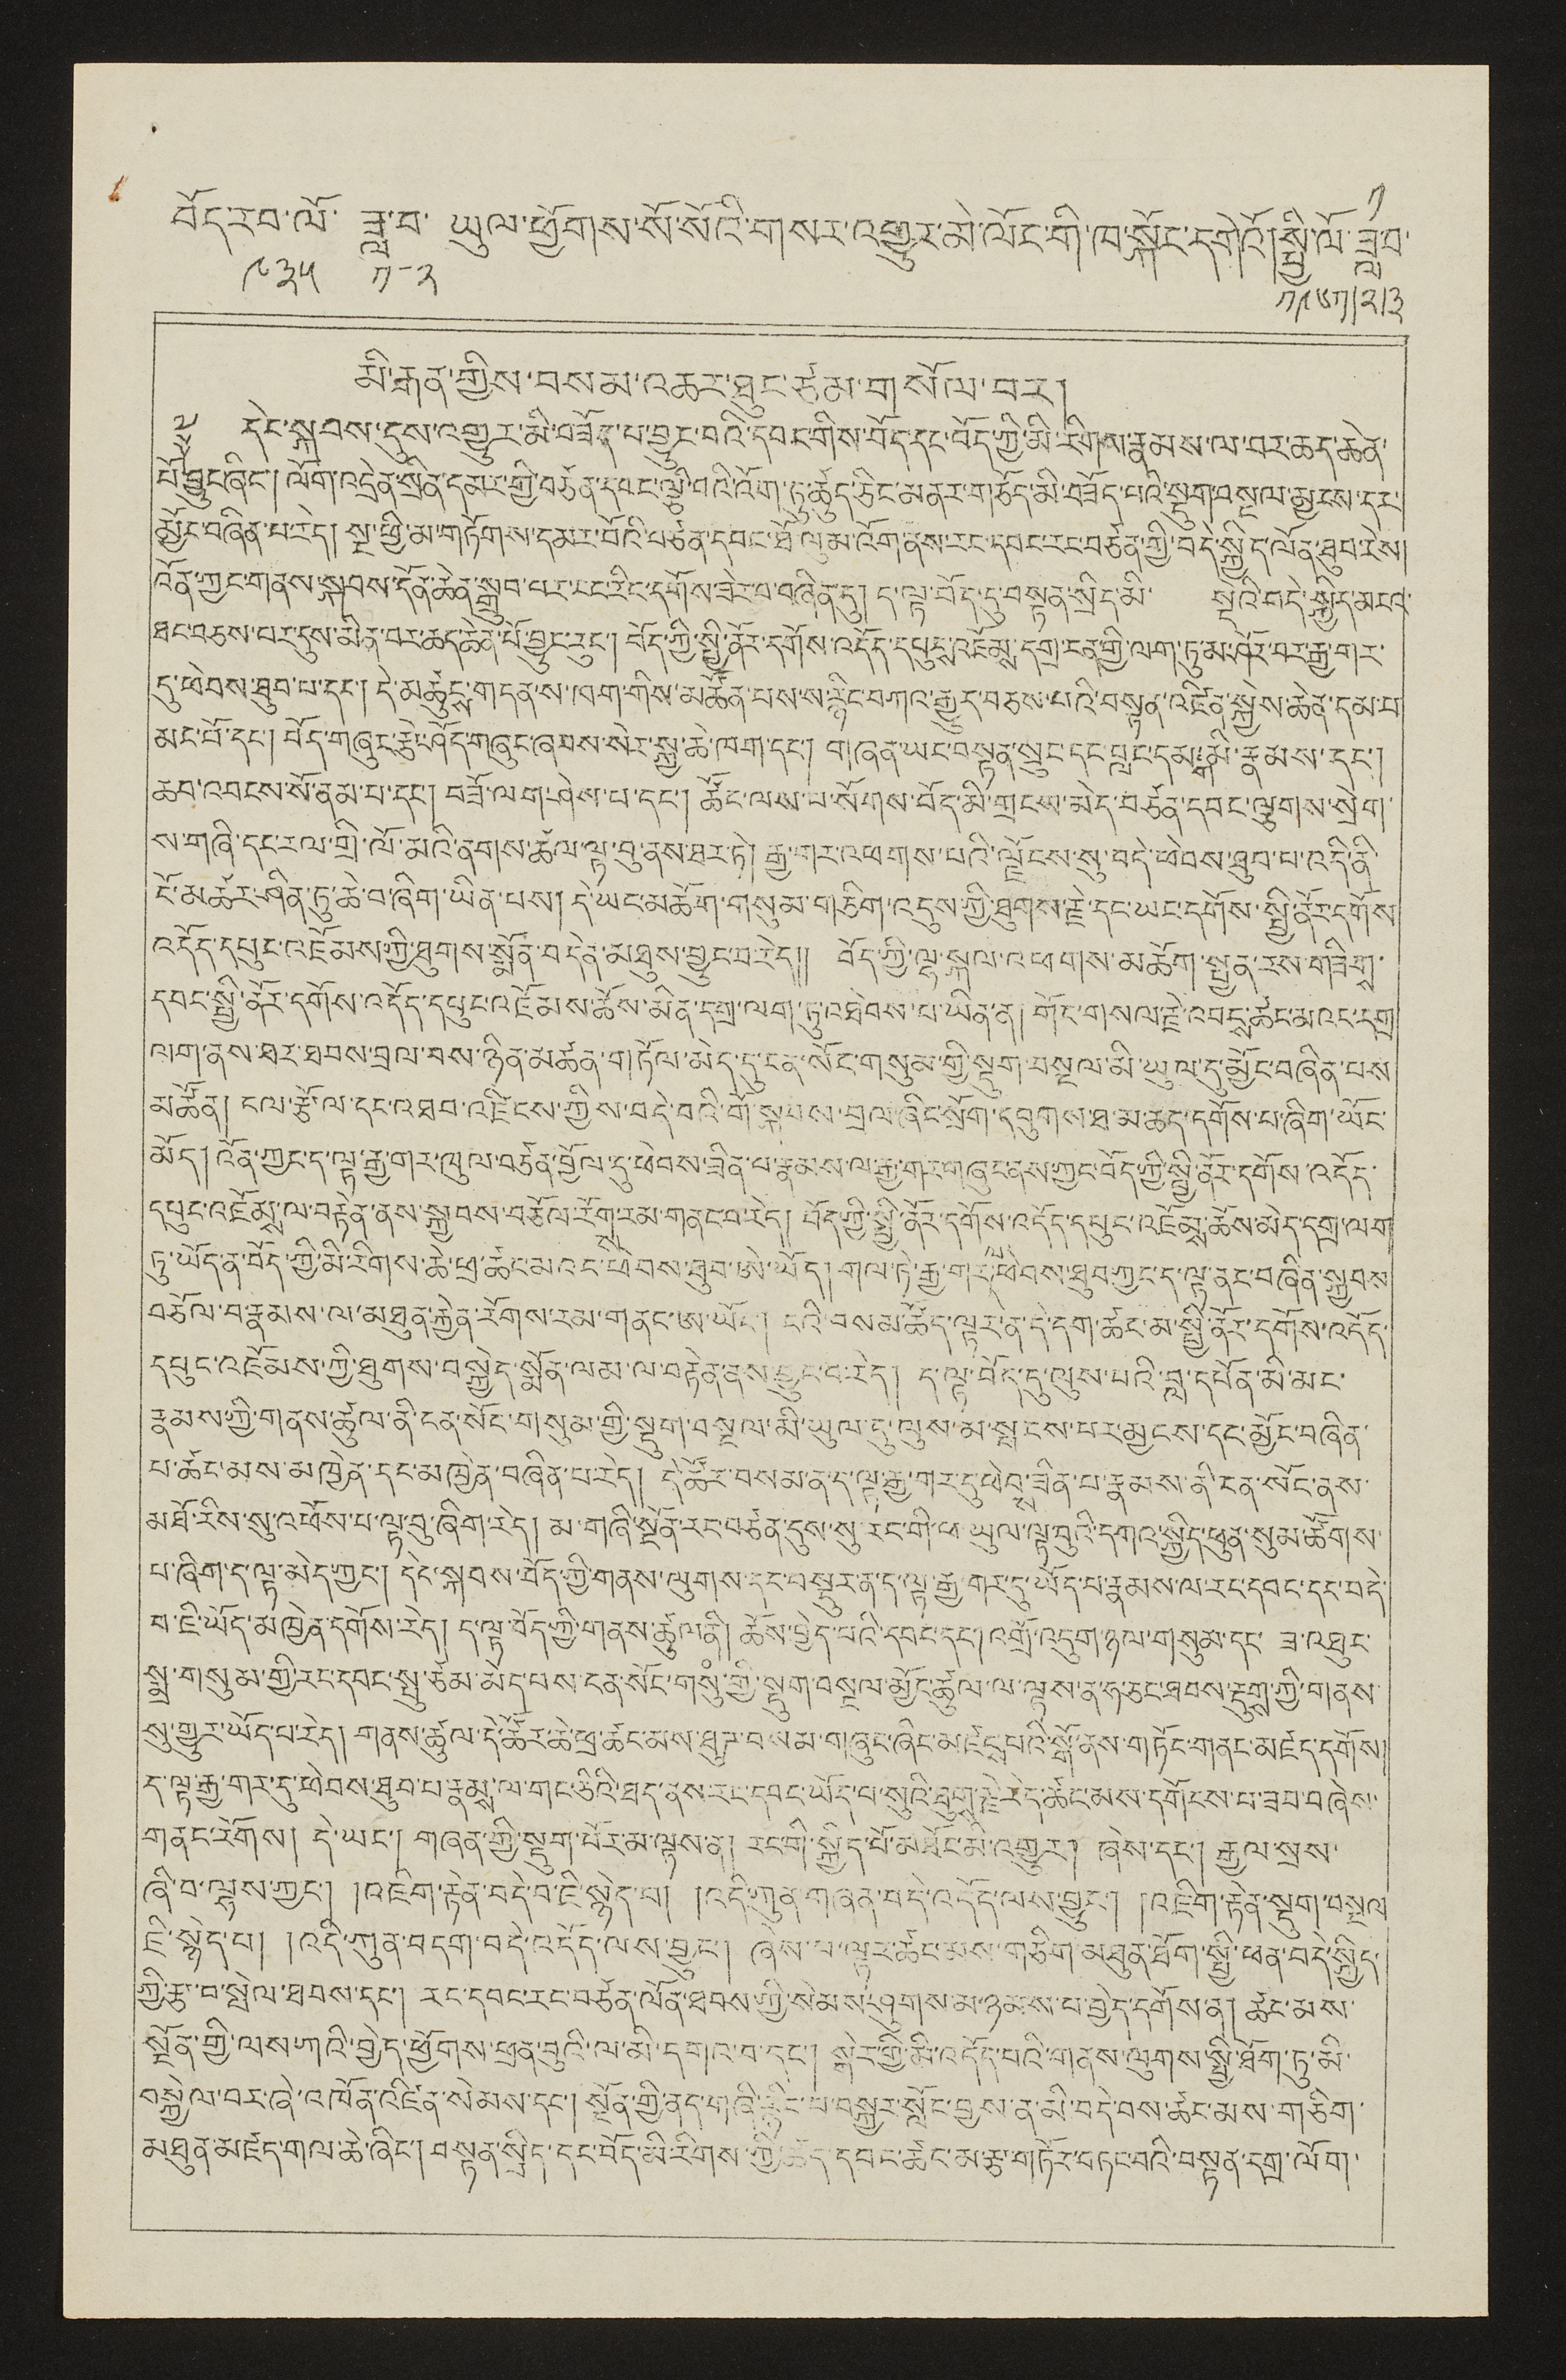༡
བོད་རབ་ལོ
༩༣༥
ཟླ་བ་
༡-༢
ཡུལ་ཕྱོགས་སོ་སོའི་གསར་འགྱུར་མེ་ལོང་གི་ཁ་སྐོར་དགེའོ། སྤྱི་ལོ་
༡༩༦༡
ཟླ་བ་
༢/༣
མི་རྒན་གྱིས་བསམ་འཆར་ཐུང་ཙམ་གསོལ་བར།
༈ དེང་སྐབས་དུས་འགྱུར་མི་བཟོད་པ་བྱུང་བའི་དབང་གིས་བོད་ཀྱི་རིགས་རྣམས་ལ་བར་ཆད་ཆེན་
པོ་བྱུང་ཞིང་། ལོག་འདྲེན་སྲིན་དམར་གྱི་བཙན་དབང་ལྕི་བའི་འོག་ཏུ་ཚུད་ཅིང་མནར་གཅོད་མི་བཟོད་པའི་སྡུག་བསྔལ་མྱངས་དར་
མྱོང་བཞིན་པ་རེད། སྔ་ཕྱི་མ་གཏོགས་དམར་པོའི་བཙན་དབང་ཐོ ལུམ་འོག་ནས་རང་དབང་རང་བཙན་གྱི་བདེ་སྐྱིད་ལོན་ཐུབ་རེས་
འོན་ཀྱང་གནས་སྐབས་དོན་ཆེན་སྒྲུབ་པར་ངང་རིང་དགོས་ཟེར་བ་བཞིན་དུ། ད་ལྟ་བོད་དུ་བསྟན་སྲིད་མི་ སྡེའི་བདེ་སྐྱིད་མངའ་
ཐང་བཅས་པར་དུས་མིན་བར་ཆད་ཆེན་པོ་བྱུང་རུང་། བོད་ཀྱི་སྤྱི་ནོར་དགོས་འདོད་དཔུངས་འཇོམས་དགྲ་ངན་གྱི་ལག་ཏུ་མ་ཤོར་བར་རྒྱ་གར་
དུ་ཕེབས་ཐུབ་པ་དང་། དེ་མཚུངས་གདན་ས་ཁག་གིས་མཚོན་པས་ས་རྙིང་བཀའ་རྒྱུར་བཅས་པའི་བསྟན་འཛིན་སྐྱེས་ཆེན་དམ་པ་
མང་པོ་དང་། བོད་གཞུང་རྩེང་ཤོད་གཞུང་ཞབས་སེར་སྐྱ་ཆེ་ཁག་དང་། གཞན་ཡང་བསྟན་སྲུང་དང་བླང་དམ་གམི་རྣམས་དང་།
ཆབ་འབངས་སོ་ནམ་པ་དང་། བཟོ་ལག་ཤེས་པ་དང་། ཚོང་ལས་པ་སོགས་བོད་མི་གྲངས་མེད་བཙན་དབང་ལྕགས་སྲེག་
ས་གཞི་དང་རལ་གྲི་ལོ་མའི་ནགས་ཚལ་ལྟ་བུ་ནས་ཐར་ཏེ། རྒྱ་གར་འཕགས་པའི་སྗོངས་སུ་བདེ་ཕེབས་ཐུབ་པ་འདི་ནི་
ངོ་མཚར་ཤིན་ཏུ་ཆེ་བ་ཞིག་ཡིན་པས། དེ་ཡང་མཆོག་གསུམ་གཅིག་འདུས་ཀྱི་ཐུགས་རྗེ་དང་ཡང་དགོས་སྤྱི་ནོར་དགོས་
འདོད་དཔུང་འཇོམས་ཀྱི་ཐུག་སྨོན་བདེན་མཐུས་བྱུང་བ་རེད།། བོད་ཀྱི་ལྷ་སྐལ་འཕགས་མཆོག་སྤྱན་རས་གཟིགས་
དབང་སྤྱི་ནོར་དགོས་འདོད་དཔུང་འཇོམས་ཆོས་མིན་དགྲ་ལག་ཏུ་འཐེབས་པ་ཡིན་ན། གོང་གསལ་རྗེ་འབངས་ཚང་མའང་དགྲ་
ལག་ནས་ཐར་ཐབས་བྲལ་བས་ཉིན་མཚན་གཏོལ་མེད་དུ་ངན་སོང་གསུམ་གྱི་སྡུག་བསྔལ་མི་ཡུལ་དུ་མྱོང་བཞིན་པས་
མཚོན། ངལ་ཙོ་ལ་དང་འཐབ་འཛིངས་ཀྱིས་བདེ་བའི་གོ་སྐབས་བྲལ་ཞིང་སྲོག་དབུགས་ཐ་མ་ཆད་དགོས་པ་ཞིག་ཡོང་
མོད། འོན་ཀྱང་ད་ལྟ་རྒྱ་གར་ཁུལ་བཙན་བྱོལ་དུ་ཕེབས་ཟིན་པ་རྣམས་ལ་རྒྱ་གར་གཞུང་ནས་ཀྱང་བོད་ཀྱི་སྤྱི་ནོར་དགོས་འདོད་
དཔུང་འཇོམས་ལ་བརྟེན་ནས་སྐྱབས་བཅོལ་རོགས་རམ་གནང་བ་རེད། བོད་ཀྱི་སྤྱི་ནོར་དགོས་འདོད་དཔུང་འཇོམས་ཆོས་མེད་དགྲ་ལག
ཏུ་ཡོད་ན་བོད་ཀྱི་མི་རིགས་ཆེ་ཕྲ་ཚང་མའང་ཕེབས་ཐུབ་ཨེ་ཡོད། གལ་ཏེ་རྒྱ་གར་ལ་ཕེབས་ཐུབ་ཀྱང་ད་ལྟ་ནང་བཞིན་སྐྱབས་
བཅོལ་བ་རྣམས་ལ་མཐུན་རྐྱེན་རོགས་རམ་གནང་ཨ་ཡོང་། ངའི་བསམ་ཚོད་ལྟར་ན་དེ་དག་ཚང་མ་སྤྱི་ནོར་དགོས་འདོད་
དཔུང་འཇོམས་ཀྱི་ཐུགས་བསྐྱེད་སྨོན་ལམ་ལ་བརྟེན་ནས་བྱུང་བ་རེད། ད་ལྟ་བོད་དུ་ལུས་པའི་བླ་དཔོན་མི་མང་
རྣམས་ཀྱི་གནས་ཚུལ་ནི་ངན་སོང་གསུམ་གྱི་སྡུག་བསྔལ་མི་ཡུལ་དུ་ལུས་མ་སྤངས་པར་མྱངས་དང་མྱོང་བཞིན་
པ་ཚང་མས་མཁྱེན་དང་མཁྱེན་བཞིན་པ་རེད། དེ་ཚོར་བསམ་ན་ད་ལྟ་རྒྱ་གར་དུ་ཕེབས་ཟིན་པ་རྣམས་ནི་ངན་སོང་ནས་
མཐོ་རིས་སུ་འཕོས་པ་ལྟ་བུ་ཞིག་རེད། མ་གཞི་སྔོན་རང་བཙན་དུས་སུ་རང་གི་ཕ་ཡུལ་ལྟ་བུའི་དགའ་སྐྱིད་ཕུན་སུམ་ཚོགས་
པ་ཞིག་ད་ལྟ་མེད་ཀྱང་། དེང་སྐབས་བོད་ཀྱི་གནས་ལུགས་དང་བསྡུར་ན་ད་ལྟ་རྒྱ་གར་དུ་ཡོད་པ་རྣམས་ལ་རང་དབང་དང་བདེ་
བ་ཇི་ཡོད་མཁྱེན་དགོས་རེད། ད་ལྟ་བོད་ཀྱི་གནས་ཚུལ་ནི། ཆོས་བྱེད་པའི་དབང་དང་། འགྲོ་འདུག་ཉལ་གསུམ་དང་ ཟ་འཐུང་
སྨྲ་གསུམ་གྱི་རང་དབང་སྤུ་ཙམ་མེད་པས་ངན་གསུཾ་གྱི་སྡུག་བསྔལ་མྱོང་ཚུལ་ལ་ལྟས་ན་ཧ་ཅང་ཐབས་རྡུགས་ཀྱི་གནས་
སུ་གྱུར་ཡོད་པ་རེད། གནས་ཚུལ་དེ་ཚོར་ཆེ་ཕྲ་ཚང་ལས་ཐུཊ་བསམ་གཞུང་ཞིང་མཛངས་པའི་སྒོ་ནས་གཏོར་གནང་མཛད་དགོས།
ད་ལྟ་རྒྱ་གར་དུ་ཕེབས་ཐུབ་པ་རྣམས་ལ་གང་ཅིའི་ཐད་ནས་རང་དབང་ཡོད་པ་སུའི་ཐུགས་རྗེ་རེད་ཚང་མས་དགོངས་པ་ཟབ་བཞེས་
གནང་རོགས། དེ་ཡང་། གཞན་གྱི་སྡུག་པོར་མ་ལྟས་ན། རང་གི་སྐྱིད་པོ་མཐོང་མི་འགྱུར། ཞེས་དང་། རྒྱལ་སྲས་
ཞི་བ་ལྷས་ཀྱང་། །འཇིག་རྟེན་བདེ་བ་ཇི་སྙེད་པ། །འདི་ཀུན་གཞན་བདེ་འདོད་ལས་བྱུང་། །འཇིག་རྟེན་སྡུག་བསྔལ་
ཇི་སྙེད་པ། །འདི་ཀུན་བདག་བདེ་འདོད་ལས་བྱུང་། ཞེས་པ་ལྟར་ཚང་མས་གཅིག་མཐུན་ཐོག་སྤྱི་ཕན་བདེ་སྐྱིད་
ཀྱི་རྩ་བ་སྤེལ་ཐབས་དང་། རང་དབང་རང་བཙན་ལོན་ཐབས་ཀྱི་སེམས་ཤུགས་མ་ཉམས་པ་བྱེད་དགོས་ན། ཚང་མས་
སྔོན་གྱི་ལས་ཀའི་བྱེད་ཕྱོགས་ཕྲན་བུའི་ལ་མི་དགའ་བ་དང་། སྒེར་གྱི་མི་འདོད་པའི་གནས་ལུགས་སྤྱི་ཐོག་ཏུ་མི་
བསྐྱེལ་བར་ཞེ་འཁོན་འཛིན་སེམས་དང་། སྔོན་གྱི་ནད་གཞི་རྙིང་པ་བསྐྱར་སློང་བྱས་ནས་མི་བདེ་བས་ཚང་པས་གཅིག་
མཐུན་མཛད་གལ་ཆེ་ཞིང་། བསྟན་སྲིད་དང་བོད་མི་རིགས་ཀྱི་ཚད་དབང་ཚང་མ་རྩ་གཏོར་བཏང་བའི་བསྟན་དགྲ་ལོག་
